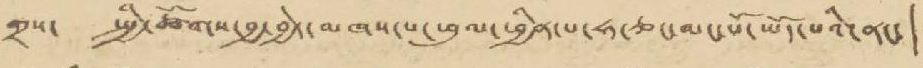གྲས་ སྤྱི་ཚོགས་བྱ་བྱེད་མཁས་པ་ཕུལ་ཕྱིན་པ་ཧ་ཅང་མང་པོ་ཡོད་པའི་ནང་ །
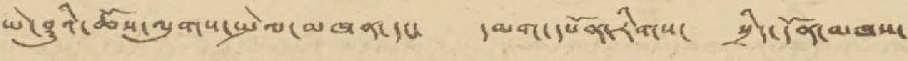ཡེ་ཤུའི་ཆོས་ལུགས་སྤེལ་མཁན་དང་ དམག་དཔོན་རིགས་ སྲིད་དོན་མཁས་
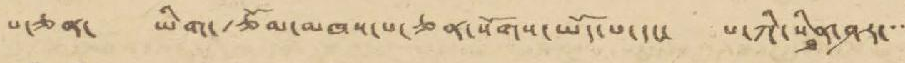པ་ཅན་ ཡིག་རྩོམ་མཁས་པ་ཅན་སོགས་ཡོད་པ་དང་ པ་ཀི་སིནྠ་ཤར་་་་
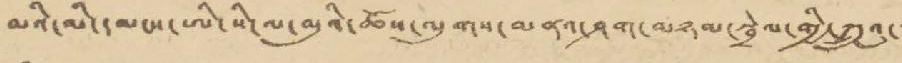མའི་མི་དམངས་ཨི་སི་ལ་མུའི་ཆོས་ལུགས་མནའ་ཤག་མཉམ་སྦྲེལ་གྱི་ཀྲུའུ་་་
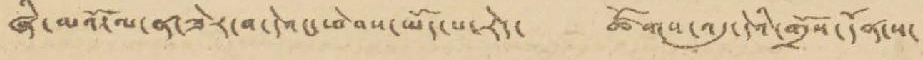ཞི་མའོ་ལ་ན་ཟེར་བ་དེའང་ཕེབས་ཡོད་པ་རེད་ ཚོགས་འདུ་དེའི་གྲོས་དོན་ས་
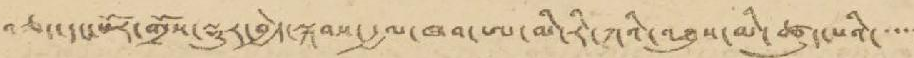ཆ་དང་པོར་གྲོས་སྡུར་བྱེད་སྐབས་རྒྱལ་ཁབ་ཨ་མི་རི་ཀའི་འཐུས་མི་ཚུད་པའི་་་་་
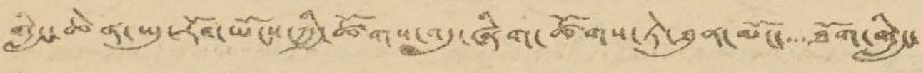གླིང་ཆེན་ཡུ་རོབ་ཡོངས་ཀྱི་ཚོགས་འདུ་ཞིག་ཚོགས་ཏེ་ཐུན་མོང་་་་ཐོག་གླིང་
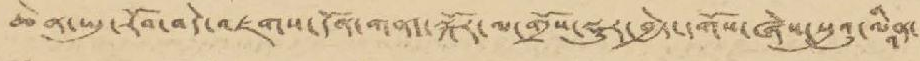ཆེན་ཡུ་རོབ་བདེ་འཇགས་དོན་གནད་སྐོར་ལ་གྲོས་སྡུར་བྱེད་དགོས་ཞེས་སུའུ་ལཱིན་
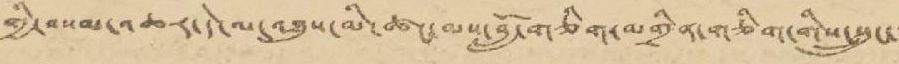གྱི་བསམ་འཆར་དེ་ལ་འཐུས་མི་ཚང་མས་བློ་གཅིག་མགྲིན་གཅིག་གིས་སྲུང་་་
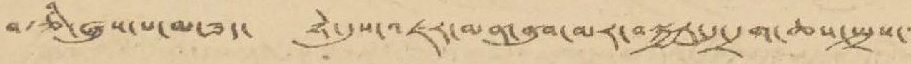བརྩི་ཞུས་པ་མ་ཟད་ ཉེ་དུས་འཇར་མན་ནུབ་མར་བསྐྱར་དུ་དྲག་ཆས་སྤྲས་
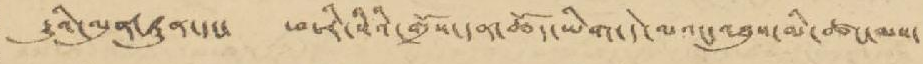རྒྱུའི་ལུན་ཏུན་དང་ ཕ་རི་སིའི་གྲོས་དན་ཆོད་ཡིག་དེ་ལའང་འཐུས་མི་ཚང་མས་
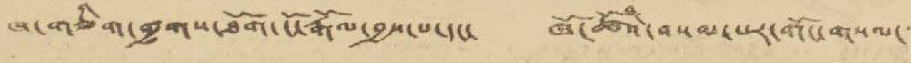ཁ་གཅིག་གྱགས་ཐོག་ངོ་རྒོལ་བྱས་པ་དང་ ཁོ་ཚོའི་བསམ་པར་གོང་གསལ་་་
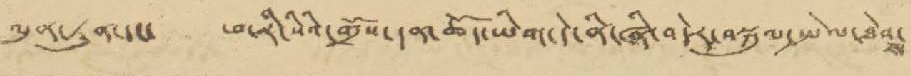ལུན་ཏུན་དང་ ཕ་རི་སིའི་གྲོས་དན་ཆོད་ཡིག་དེ་ནི་ཞི་བདེར་བསྐུལ་སྤེལ་ཐེབས་
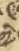ཀྱི་
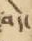བདེ་
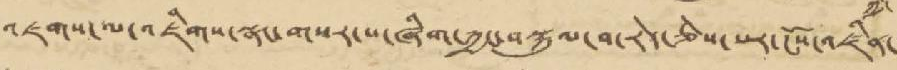འཇགས་ལ་འཇིགས་སྣང་གསར་པ་ཞིག་ཀྱང་བསྐུལ་བ་རེད་ཅེས་པར་ངོས་འཛིན་་་
